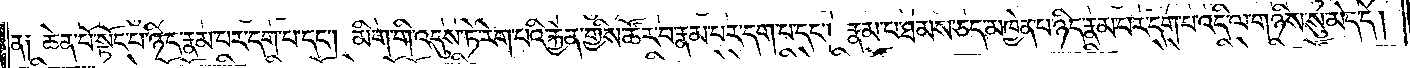ན༑ ཆེན་པོ་སྟོང་པ་ཉིད་རྣམ་པར་དག་པ་དང༌། མིག་གི་འདུས་ཏེ་རེག་པའི་རྐྱེན་གྱིས་ཚོར་བ་རྣམ་པར་དག་པ་དང༌། རྣམ་པ་ཐམས་ཅད་མཁྱེན་པ་ཉིད་རྣམ་པར་དག་པ་འདི་ལ་གཉིས་སུ་མེད་དེ།
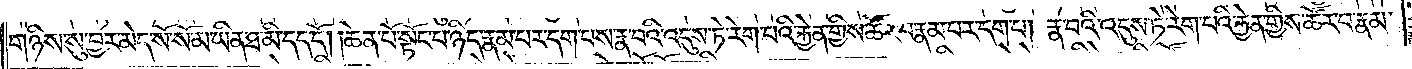གཉིས་སུ་བྱར་མེད་སོ་སོ་མ་ཡིན་ཐ་མི་དད་དོ། །ཆེན་པོ་སྟོང་པ་ཉིད་རྣམ་པར་དག་པས་རྣ་བའི་འདུས་ཏེ་རེག་པའི་རྐྱེན་གྱིས་ཚོར་བ་རྣམ་པར་དག་པ། རྣ་བའི་འདུས་ཏེ་རེག་པའི་རྐྱེན་གྱིས་ཚོར་བ་རྣམ་
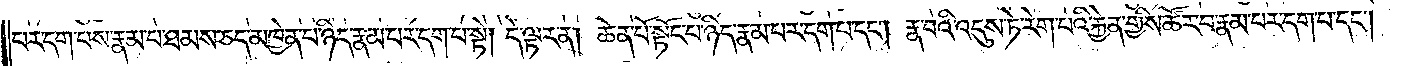པར་དག་པས་རྣམ་པ་ཐམས་ཅད་མཁྱེན་པ་ཉིད་རྣམ་པར་དག་པ་སྟེ། དེ་ལྟར་ན། ཆེན་པོ་སྟོང་པ་ཉིད་རྣམ་པར་དག་པ་དང༌། རྣ་བའི་འདུས་ཏེ་རེག་པའི་རྐྱེན་གྱིས་ཚོར་བ་རྣམ་པར་དག་པ་དང༌།
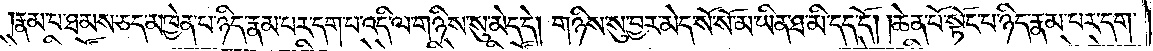རྣམ་པ་ཐམས་ཅད་མཁྱེན་པ་ཉིད་རྣམ་པར་དག་པ་འདི་ལ་གཉིས་སུ་མེད་དེ། གཉིས་སུ་བྱར་མེད་སོ་སོ་མ་ཡིན་ཐ་མི་དད་དོ། །ཆེན་པོ་སྟོང་པ་ཉིད་རྣམ་པར་དག་
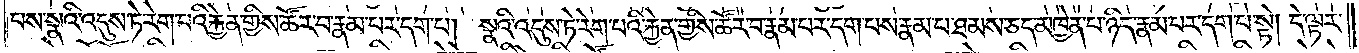པས་སྣའི་འདུས་ཏེ་རེག་པའི་རྐྱེན་གྱིས་ཚོར་བ་རྣམ་པར་དག་པ། སྣའི་འདུས་ཏེ་རེག་པའི་རྐྱེན་གྱིས་ཚོར་བ་རྣམ་པར་དག་པས་རྣམ་པ་ཐམས་ཅད་མཁྱེན་པ་ཉིད་རྣམ་པར་དག་པ་སྟེ། དེ་ལྟར་
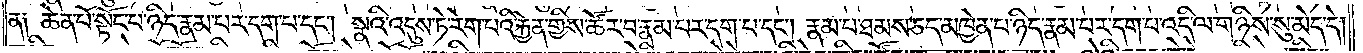ན༑ ཆེན་པོ་སྟོང་པ་ཉིད་རྣམ་པར་དག་པ་དང༌། སྣའི་འདུས་ཏེ་རེག་པའི་རྐྱེན་གྱིས་ཚོར་བ་རྣམ་པར་དག་པ་དང༌། རྣམ་པ་ཐམས་ཅད་མཁྱེན་པ་ཉིད་རྣམ་པར་དག་པ་འདི་ལ་གཉིས་སུ་མེད་དེ།
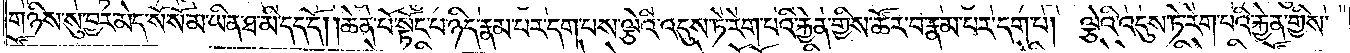གཉིས་སུ་བྱར་མེད་སོ་སོ་མ་ཡིན་ཐ་མི་དད་དོ། །ཆེན་པོ་སྟོང་པ་ཉིད་རྣམ་པར་དག་པས་ལྕེའི་འདུས་ཏེ་རེག་པའི་རྐྱེན་གྱིས་ཚོར་བ་རྣམ་པར་དག་པ། ལྕེའི་འདུས་ཏེ་རེག་པའི་རྐྱེན་གྱིས་
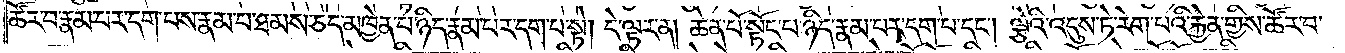ཚོར་བ་རྣམ་པར་དག་པས་རྣམ་པ་ཐམས་ཅད་མཁྱེན་པ་ཉིད་རྣམ་པར་དག་པ་སྟེ། དེ་ལྟར་ན། ཆེན་པོ་སྟོང་པ་ཉིད་རྣམ་པར་དག་པ་དང༌། ལྕེའི་འདུས་ཏེ་རེག་པའི་རྐྱེན་གྱིས་ཚོར་བ་
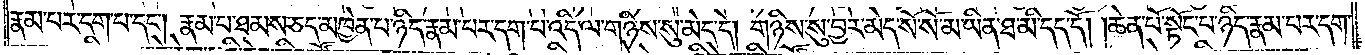རྣམ་པར་དག་པ་དང༌། རྣམ་པ་ཐམས་ཅད་མཁྱེན་པ་ཉིད་རྣམ་པར་དག་པ་འདི་ལ་གཉིས་སུ་མེད་དེ། གཉིས་སུ་བྱར་མེད་སོ་སོ་མ་ཡིན་ཐ་མི་དད་དོ། །ཆེན་པོ་སྟོང་པ་ཉིད་རྣམ་པར་དག་
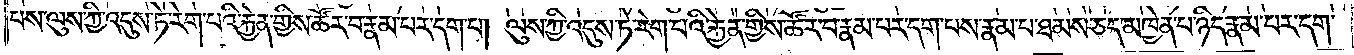པས་ལུས་ཀྱི་འདུས་ཏེ་རེག་པའི་རྐྱེན་གྱིས་ཚོར་བ་རྣམ་པར་དག་པ། ལུས་ཀྱི་འདུས་ཏེ་རེག་པའི་རྐྱེན་གྱིས་ཚོར་བ་རྣམ་པར་དག་པས་རྣམ་པ་ཐམས་ཅད་མཁྱེན་པ་ཉིད་རྣམ་པར་དག་
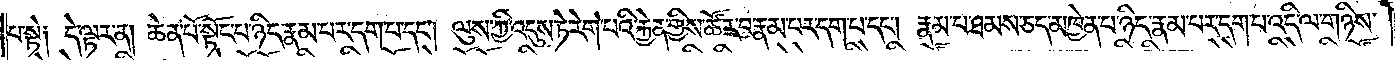པ་སྟེ༑ དེ་ལྟར་ན། ཆེན་པོ་སྟོང་པ་ཉིད་རྣམ་པར་དག་པ་དང༌། ལུས་ཀྱི་འདུས་ཏེ་རེག་པའི་རྐྱེན་གྱིས་ཚོར་བ་རྣམ་པར་དག་པ་དང༌། རྣམ་པ་ཐམས་ཅད་མཁྱེན་པ་ཉིད་རྣམ་པར་དག་པ་འདི་ལ་གཉིས་
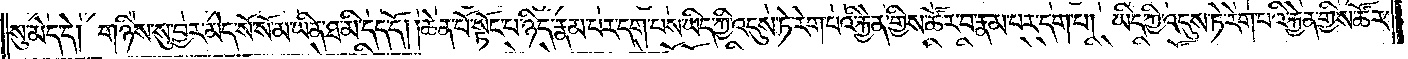སུ་མེད་དེ། གཉིས་སུ་བྱར་མེད་སོ་སོ་མ་ཡིན་ཐ་མི་དད་དོ། །ཆེན་པོ་སྟོང་པ་ཉིད་རྣམ་པར་དག་པས་ཡིད་ཀྱི་འདུས་ཏེ་རེག་པའི་རྐྱེན་གྱིས་ཚོར་བ་རྣམ་པར་དག་པ། ཡིད་ཀྱི་འདུས་ཏེ་རེག་པའི་རྐྱེན་གྱིས་ཚོར་
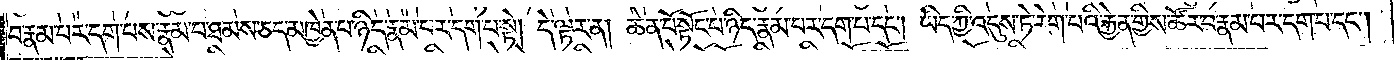བ་རྣམ་པར་དག་པས་རྣམ་པ་ཐམས་ཅད་མཁྱེན་པ་ཉིད་རྣམ་པར་དག་པ་སྟེ། དེ་ལྟར་ན། ཆེན་པོ་སྟོང་པ་ཉིད་རྣམ་པར་དག་པ་དང༌། །ཡིད་ཀྱི་འདུས་ཏེ་རེག་པའི་རྐྱེན་གྱིས་ཚོར་བ་རྣམ་པར་དག་པ་དང༌།
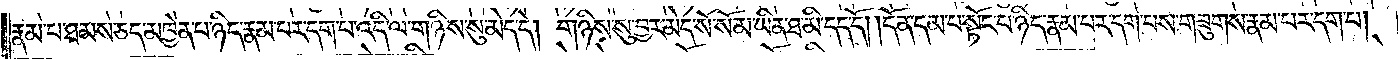རྣམ་པ་ཐམས་ཅད་མཁྱེན་པ་ཉིད་རྣམ་པར་དག་པ་འདི་ལ་གཉིས་སུ་མེད་དེ། གཉིས་སུ་བྱར་མེད་སོ་སོ་མ་ཡིན་ཐ་མི་དད་དོ། །དོན་དམ་པ་སྟོང་པ་ཉིད་རྣམ་པར་དག་པས་གཟུགས་རྣམ་པར་དག་པ།
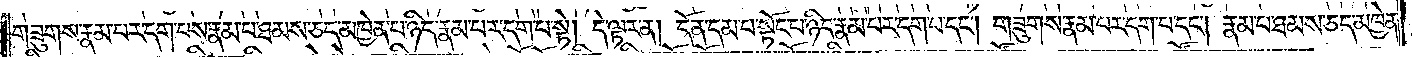གཟུགས་རྣམ་པར་དག་པས་རྣམ་པ་ཐམས་ཅད་མཁྱེན་པ་ཉིད་རྣམ་པར་དག་པ་སྟེ། དེ་ལྟར་ན། དོན་དམ་པ་སྟོང་པ་ཉིད་རྣམ་པར་དག་པ་དང༌། གཟུགས་རྣམ་པར་དག་པ་དང༌། རྣམ་པ་ཐམས་ཅད་མཁྱེན་
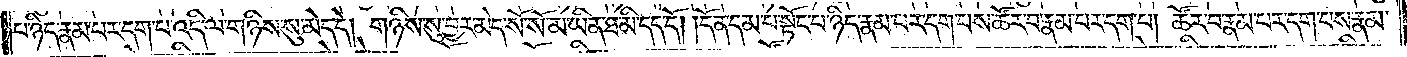པ་ཉིད་རྣམ་པར་དག་པ་འདི་ལ་གཉིས་སུ་མེད་དེ། གཉིས་སུ་བྱར་མེད་སོ་སོ་མ་ཡིན་ཐ་མི་དད་དོ། །དོན་དམ་པ་སྟོང་པ་ཉིད་རྣམ་པར་དག་པས་ཚོར་བ་རྣམ་པར་དག་པ། ཚོར་བ་རྣམ་པར་དག་པས་རྣམ་
